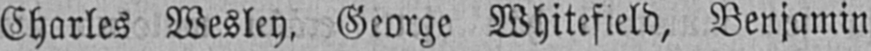Charles Wesley, George Whitefield, Benjamin
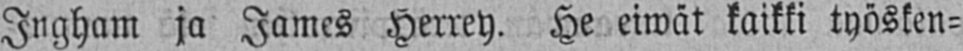Ingham ja James Herrey. He eiwät kaikki työsken-
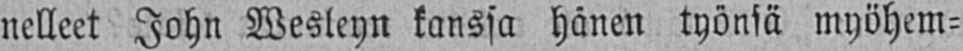nelleet John Wesleyn kanssa hänen työnsä myöhem-
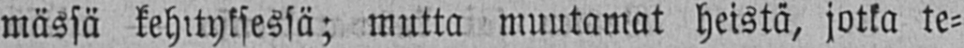mässä kehityksessä; mutta muutamat heistä, jotka te-
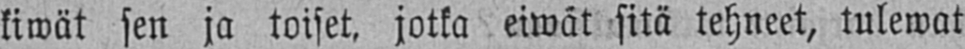kiwät sen ja toiset, jotka eiwät sitä tehneet, tulewat
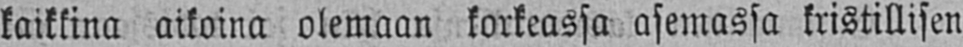kaikkina aikoina olemaan korkeassa asemassa kristillisen
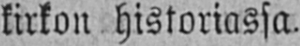kirkon historiassa.
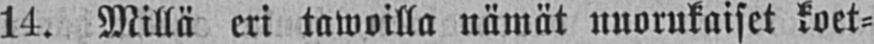14. Millä eri tawoilla nämät nuorukaiset koet-
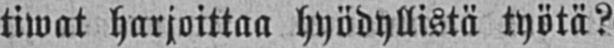tiwat harjoittaa hyödyllistä työtä?
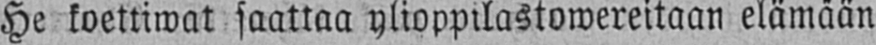He koettiwat saattaa ylioppilastowereitaan elämään
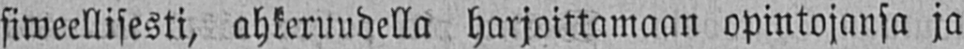siweellisesti, ahkeruudella harjoittamaan opintojansa ja
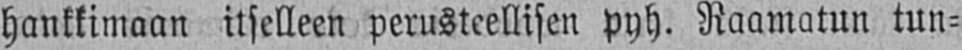hankkimaan itselleen perusteellisen pyh. Raamatun tun-
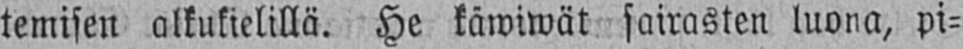temisen alkukielillä. He käwiwät sairasten luona, pi-
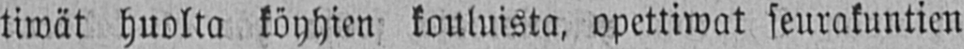tiwät huolta köyhien kouluista, opettiwat seurakuntien
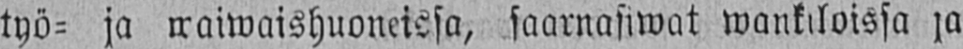työ- ja waiwaishuoneissa, saarnasiwat wankiloissa ja
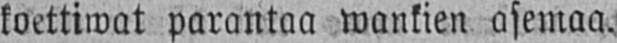koettiwat parantaa wankien asemaa.
